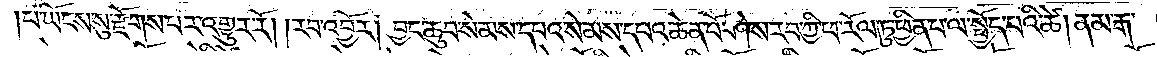པ་ཡོངས་སུ་རྫོགས་པར་འགྱུར་རོ། །རབ་འབྱོར། བྱང་ཆུབ་སེམས་དཔའ་སེམས་དཔའ་ཆེན་པོ་ཤེས་རབ་ཀྱི་ཕ་རོལ་ཏུ་ཕྱིན་པ་ལ་སྤྱོད་པའི་ཚེ། ནམ་རྒ་
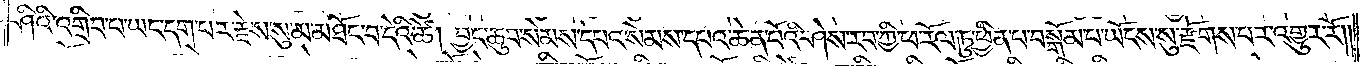ཤིའི་འགྲིབ་པ་ཡང་དག་པར་རྗེས་སུ་མ་མཐོང་བདེའི་ཚེ། བྱང་ཆུབ་སེམས་དཔའ་སེམས་དཔའ་ཆེན་པོའི་ཤེས་རབ་ཀྱི་ཕ་རོལ་ཏུ་ཕྱིན་པ་བསྒོམ་པ་ཡོངས་སུ་རྫོགས་པར་འགྱུར་རོ། །
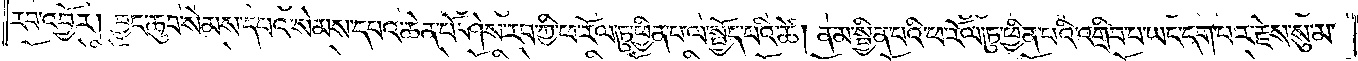རབ་འབྱོར། བྱང་ཆུབ་སེམས་དཔའ་སེམས་དཔའ་ཆེན་པོ་ཤེས་རབ་ཀྱི་ཕ་རོལ་ཏུ་ཕྱིན་པ་ལ་སྤྱོད་པའི་ཚེ། ནམ་སྦྱིན་པའི་ཕ་རོལ་ཏུ་ཕྱིན་པའི་འགྲིབ་པ་ཡང་དག་པར་རྗེས་སུ་མ་
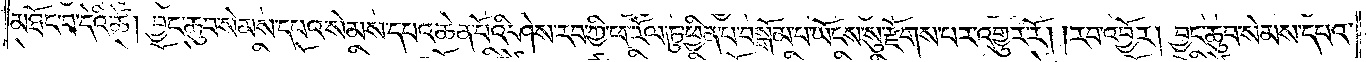མཐོང་བ་དེའི་ཚེ། བྱང་ཆུབ་སེམས་དཔའ་སེམས་དཔའ་ཆེན་པོའི་ཤེས་རབ་ཀྱི་ཕ་རོལ་ཏུ་ཕྱིན་པ་བསྒོམ་པ་ཡོངས་སུ་རྫོགས་པར་འགྱུར་རོ། །རབ་འབྱོར། བྱང་ཆུབ་སེམས་དཔའ་
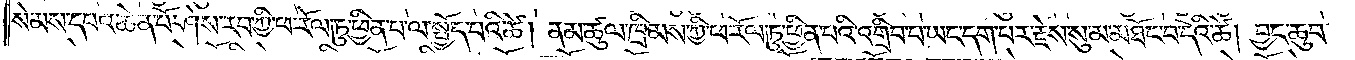སེམས་དཔའ་ཆེན་པོ་ཤེས་རབ་ཀྱི་ཕ་རོལ་ཏུ་ཕྱིན་པ་ལ་སྤྱོད་པའི་ཚེ། ནམ་ཚུལ་ཁྲིམས་ཀྱི་ཕ་རོལ་ཏུ་ཕྱིན་པའི་འགྲིབ་པ་ཡང་དག་པར་རྗེས་སུ་མ་མཐོང་བ་དེའི་ཚེ། བྱང་ཆུབ་
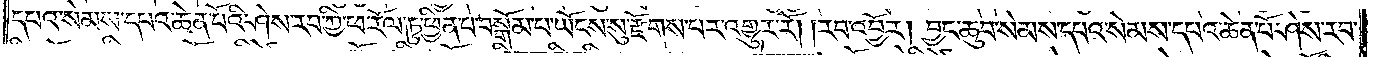དཔའ་སེམས་དཔའ་ཆེན་པོའི་ཤེས་རབ་ཀྱི་ཕ་རོལ་ཏུ་ཕྱིན་པ་བསྒོམ་པ་ཡོངས་སུ་རྫོགས་པར་འགྱུར་རོ། །རབ་འབྱོར། བྱང་ཆུབ་སེམས་དཔའ་སེམས་དཔའ་ཆེན་པོ་ཤེས་རབ་
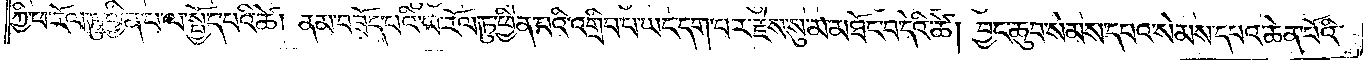ཀྱི་ཕ་རོལ་ཏུ་ཕྱིན་པ་ལ་སྤྱོད་པའི་ཚེ། ནམ་བཟོད་པའི་ཕ་རོལ་ཏུ་ཕྱིན་པའི་འགྲིབ་པ་ཡང་དག་པར་རྗེས་སུ་མ་མཐོང་བ་དེའི་ཚེ། བྱང་ཆུབ་སེམས་དཔའ་སེམས་དཔའ་ཆེན་པོའི་
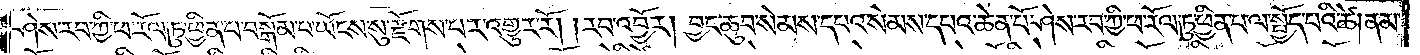ཤེས་རབ་ཀྱི་ཕ་རོལ་ཏུ་ཕྱིན་པ་བསྒོམ་པ་ཡོངས་སུ་རྫོགས་པར་འགྱུར་རོ། །རབ་འབྱོར། བྱང་ཆུབ་སེམས་དཔའ་སེམས་དཔའ་ཆེན་པོ་ཤེས་རབ་ཀྱི་ཕ་རོལ་ཏུ་ཕྱིན་པ་ལ་སྤྱོད་པའི་ཚེ། ནམ་
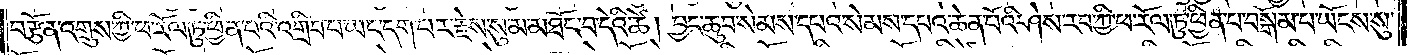བརྩོན་འགྲུས་ཀྱི་ཕ་རོལ་ཏུ་ཕྱིན་པའི་འགྲིབ་པ་ཡང་དག་པར་རྗེས་སུ་མ་མཐོང་བ་དེའི་ཚེ། བྱང་ཆུབ་སེམས་དཔའ་སེམས་དཔའ་ཆེན་པོའི་ཤེས་རབ་ཀྱི་ཕ་རོལ་ཏུ་ཕྱིན་པ་བསྒོམ་པ་ཡོངས་སུ་
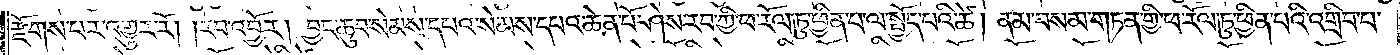རྫོགས་པར་འགྱུར་རོ། །རབ་འབྱོར། བྱང་ཆུབ་སེམས་དཔའ་སེམས་དཔའ་ཆེན་པོ་ཤེས་རབ་ཀྱི་ཕ་རོལ་ཏུ་ཕྱིན་པ་ལ་སྤྱོད་པའི་ཚེ། ནམ་བསམ་གཏན་གྱི་ཕ་རོལ་ཏུ་ཕྱིན་པའི་འགྲིབ་པ་
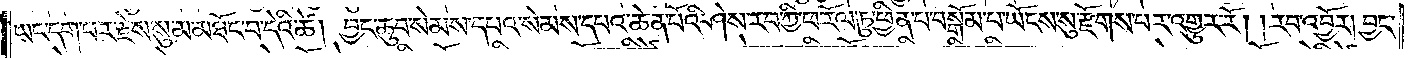ཡང་དག་པར་རྗེས་སུ་མ་མཐོང་བ་དེའི་ཚེ། བྱང་ཆུབ་སེམས་དཔའ་སེམས་དཔའ་ཆེན་པོའི་ཤེས་རབ་ཀྱི་ཕ་རོལ་ཏུ་ཕྱིན་པ་བསྒོམ་པ་ཡོངས་སུ་རྫོགས་པར་འགྱུར་རོ། །རབ་འབྱོར། བྱང་
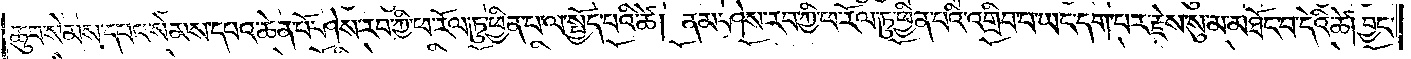ཆུབ་སེམས་དཔའ་སེམས་དཔའ་ཆེན་པོ་ཤེས་རབ་ཀྱི་ཕ་རོལ་ཏུ་ཕྱིན་པ་ལ་སྤྱོད་པའི་ཚེ། ནམ་ཤེས་རབ་ཀྱི་ཕ་རོལ་ཏུ་ཕྱིན་པའི་འགྲིབ་པ་ཡང་དག་པར་རྗེས་སུ་མ་མཐོང་བ་དེའི་ཚེ། བྱང་
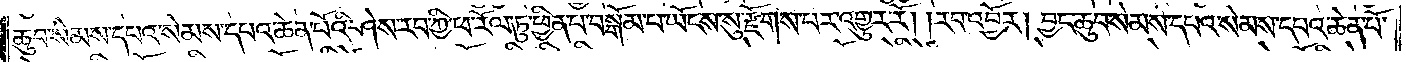ཆུབ་སེམས་དཔའ་སེམས་དཔའ་ཆེན་པོའི་ཤེས་རབ་ཀྱི་ཕ་རོལ་ཏུ་ཕྱིན་པ་བསྒོམ་པ་ཡོངས་སུ་རྫོགས་པར་འགྱུར་རོ། །རབ་འབྱོར། བྱང་ཆུབ་སེམས་དཔའ་སེམས་དཔའ་ཆེན་པོ་
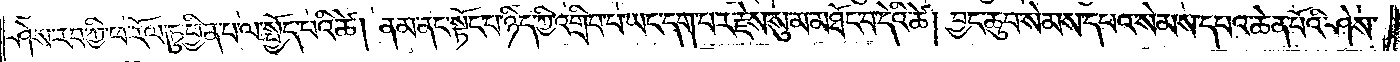ཤེས་རབ་ཀྱི་ཕ་རོལ་ཏུ་ཕྱིན་པ་ལ་སྤྱོད་པའི་ཚེ། ནམ་ནང་སྟོང་པ་ཉིད་ཀྱི་འགྲིབ་པ་ཡང་དག་པར་རྗེས་སུ་མ་མཐོང་བ་དེའི་ཚེ། བྱང་ཆུབ་སེམས་དཔའ་སེམས་དཔའ་ཆེན་པོའི་ཤེས་
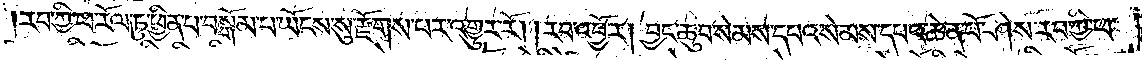རབ་ཀྱི་ཕ་རོལ་ཏུ་ཕྱིན་པ་བསྒོམ་པ་ཡོངས་སུ་རྫོགས་པར་འགྱུར་རོ། །རབ་འབྱོར། བྱང་ཆུབ་སེམས་དཔའ་སེམས་དཔའ་ཆེན་པོ་ཤེས་རབ་ཀྱི་ཕ་
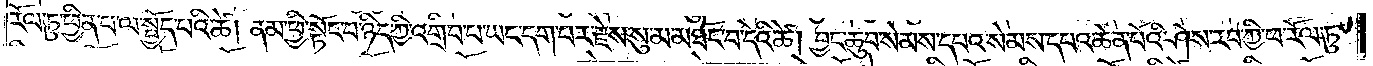རོལ་ཏུ་ཕྱིན་པ་ལ་སྤྱོད་པའི་ཚེ། ནམ་ཕྱི་སྟོང་པ་ཉིད་ཀྱི་འགྲིབ་པ་ཡང་དག་པར་རྗེས་སུ་མ་མཐོང་བ་དེའི་ཚེ། བྱང་ཆུབ་སེམས་དཔའ་སེམས་དཔའ་ཆེན་པོའི་ཤེས་རབ་ཀྱི་ཕ་རོལ་ཏུ་
